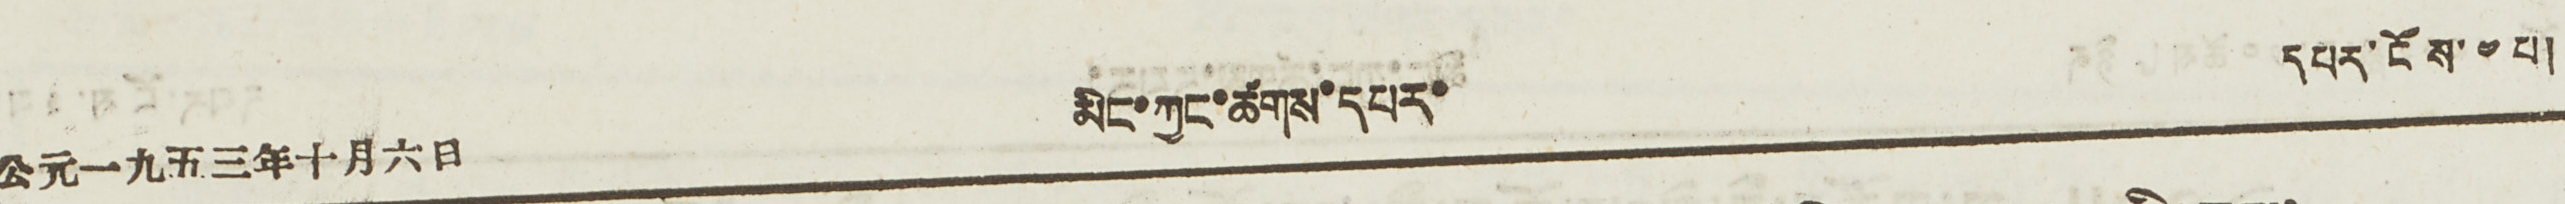公元一九五三年十月六日 མིང་ཀྱང་ཚགས་དཔར་ དཔར་ངོས་ ༤ པ།
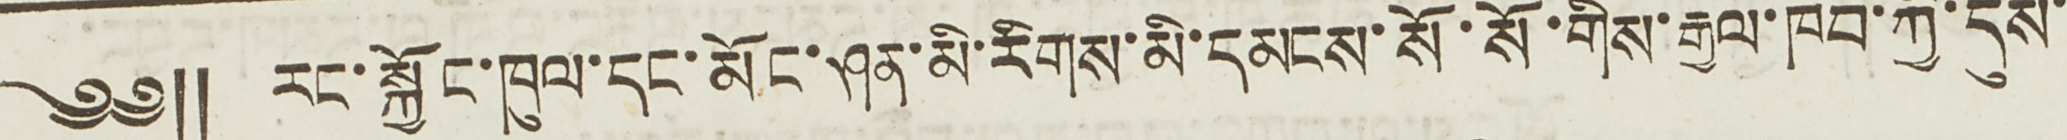༄༅༎ རང་སྐྱོང་ཁུལ་དང་མོང་ཤན་མི་རིགས་མི་དམངས་སོ་སོ་གིས་རྒྱལ་ཁབ་ཀྱི་དུས་
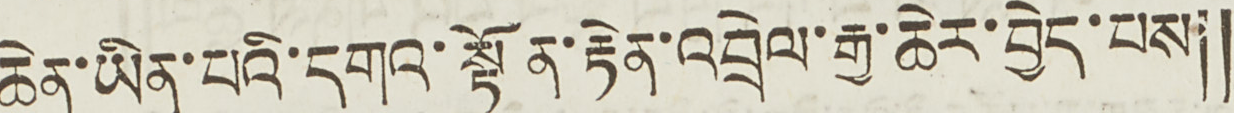ཆེན་ཡིན་པའི་དགའ་སྟོན་རྟེན་འབྲེལ་རྒྱ་ཆེར་བྱེད་པས༎
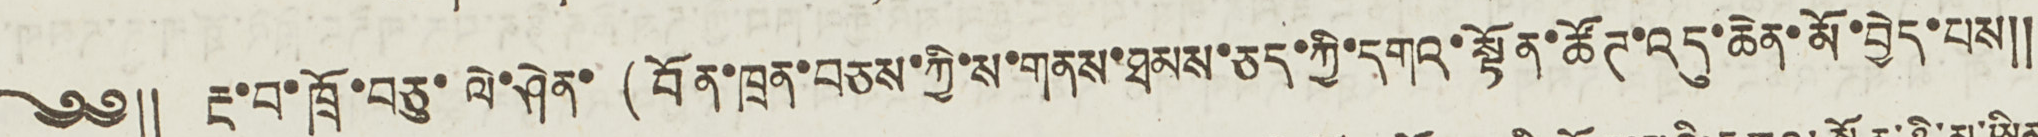༄༅༎ རྔ་བ་ཁྲོ་བཅུ་ལེ་ཤེན་ (བོན་ཁྲན་བཅས་ཀྱི་ས་གནས་ཐམས་ཅད་ཀྱི་དགའ་སྟོན་ཚོཊ་འདུ་ཆེན་མོ་བྱེད་པས༎
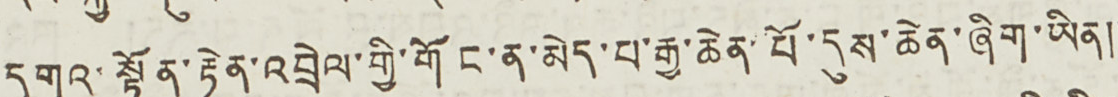དགའ་སྟོན་རྟེན་འབྲེལ་གྱི་གོང་ན་མེད་པ་རྒྱ་ཆེན་པོ་དུས་ཆེན་ཞིག་ཡིན༎
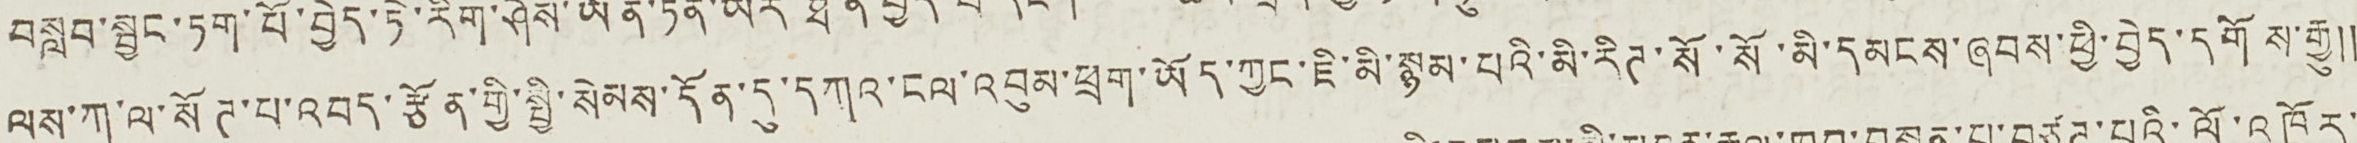ལས་ཀ་ལ་སོཊ་པ་འབད་རྩོན་གྱི་སྤྱི་སེམས་དོན་དུ་དཀའ་ངལ་འབུམ་ཕྲག་ཡོད་ཀྱང་ཇི་མི་སྙམ་པའི་མི་རིཊ་སོ་སོ་མི་དམངས་ཞབས་ཕྱི་བྱེད་དགོས་རྒྱུ༎
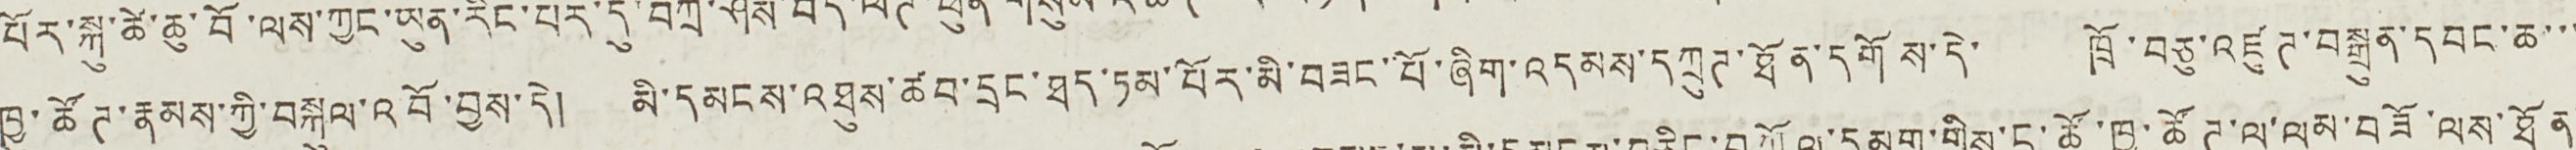ཁྱུ་ཚོཊ་རྣམས་ཀྱི་བསྐུལ་འབོ་བྱས་དེ། མི་དམངས་འཐུས་ཚབ་དྲང་ཐད་ཏམ་པོར་མི་བཟང་པོ་ཞིག་འདམས་དཀྲུཊ་ཐོན་དགོས་དེ་ ཁྲོ་བཅུ་འཛུཊ་བསྒྲུན་དབང་ཆ་་་
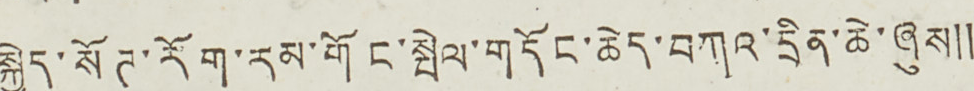སྐྱེད་སོཊ་རོག་རམ་གོང་སྤེལ་གདོང་ཆེད་བཀའ་དྲིན་ཆེ་ཞུས༎
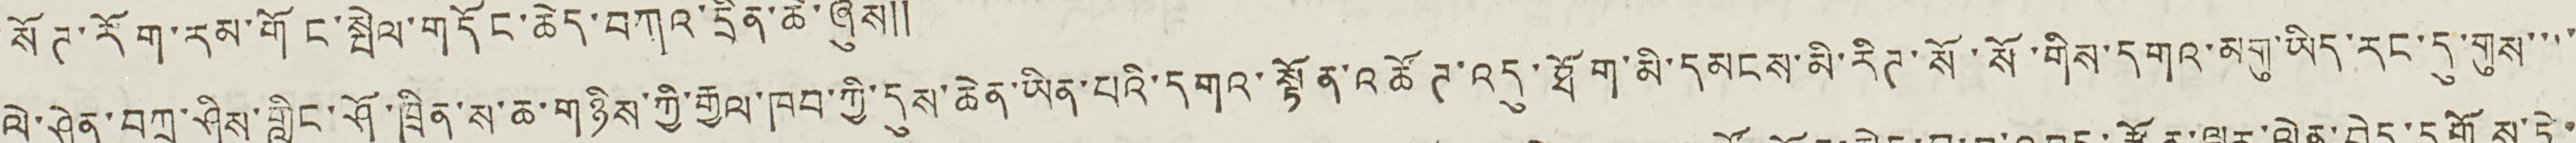ལེ་ཤེན་བཀྲ་ཤིས་གླིང་ཤོ་ཁྲིན་ས་ཆ་གཉིས་ཀྱི་རྒྱལ་ཁབ་ཀྱི་དུས་ཆེན་ཡིན་པའི་དགའ་སྟོན་འཚོཊ་འདུ་ཐོག་མི་དམངས་མི་རིཊ་སོ་སོ་གིས་དགའ་མགུ་ཡིད་རང་དུ་གུས་་་་
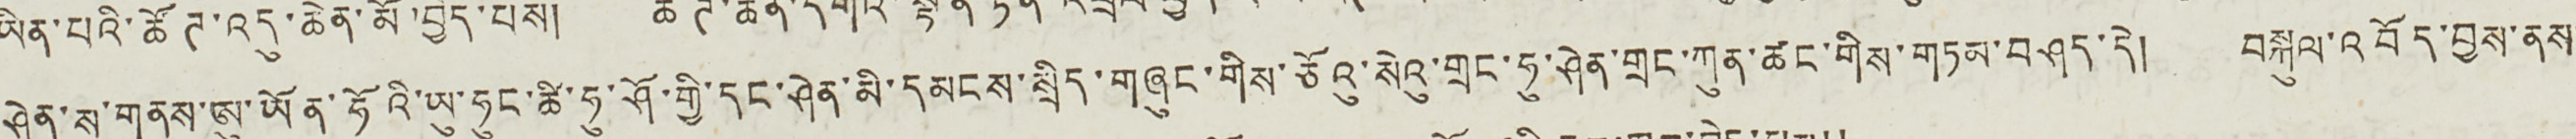ཤེན་ས་གནས་ཨུ་ཡོན་ཧོའི་ཡུ་ཧུང་ཚི་ཧུ་ཤོ་གྱི་དང་ཤེན་མི་དམངས་སྲིད་གཞུང་གིས་ཅོའུ་སེའུ་གྲང་ཧུ་ཤེན་གྲང་ཀུན་ཚང་གིས་གཏམ་བཤད་དེ། བསྐུལ་འབོད་བྱས་ནས་
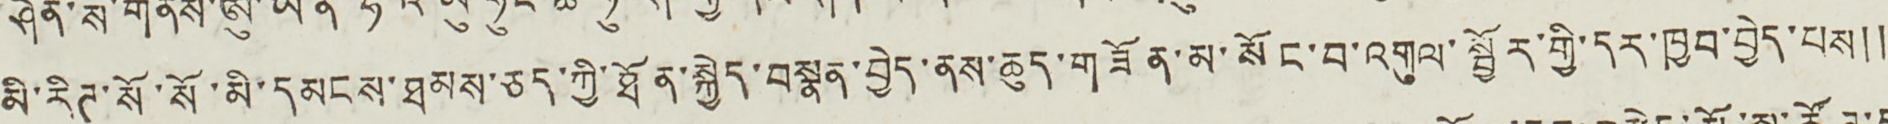མི་རིཊ་སོ་སོ་མི་དམངས་ཐམས་ཅད་ཀྱི་ཐོན་སྐྱེད་བསྣན་བྱེད་ནས་ཆུད་གཟོན་མ་སོང་བ་འགུལ་སྦྱོར་གྱི་དར་ཁྱབ་བྱེད་པ༎
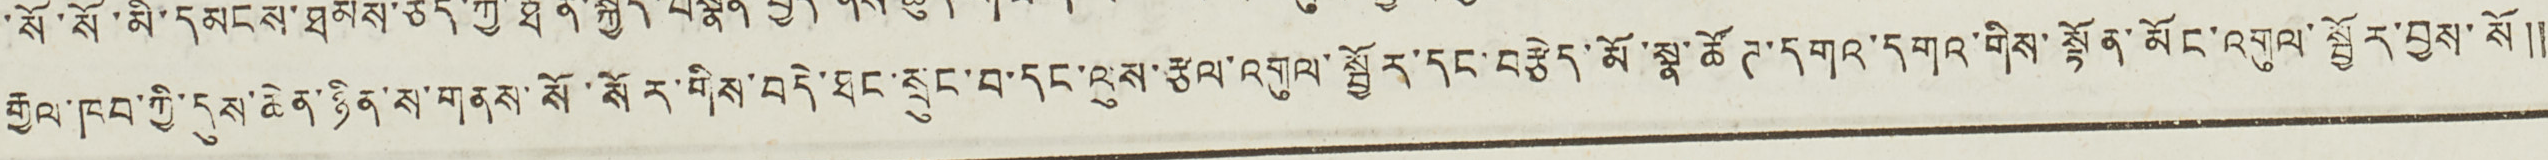རྒྱལ་ཁབ་ཀྱི་དུས་ཆེན་ཉིན་ས་གནས་སོ་སོར་གིས་བདེ་ཐང་སྲུང་བ་དང་ལུས་རྩལ་འགུལ་སྦྱོར་དང་བརྩེད་མོ་སྣ་ཚོཊ་དགའ་དགའ་གིས་སྟོན་མོང་འགུལ་སྦྱོར་བྱས་སོ ༎
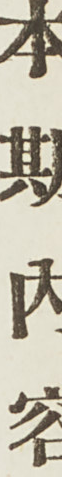本 期 內 容
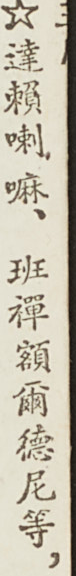☆達賴喇嘛、班禪額爾德尼等，
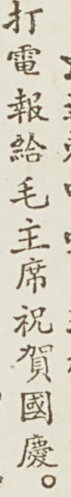打電報給毛主席祝賀國慶。
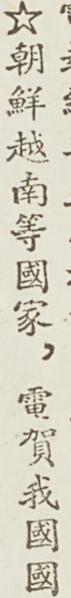☆朝鮮越南等國家，電賀我國國
